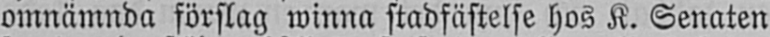omnämnda förslag winna stadfästelse hos K. Senaten
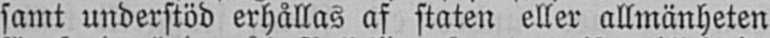samt understöd erhållas af staten eller allmänheten
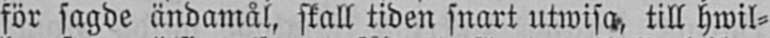för sagde ändamål, skall tiden snart utwisa till hwil-
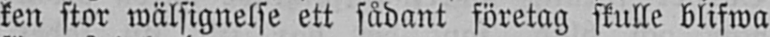ken stor wälsignelse ett sådant företag skulle blifwa
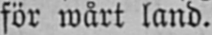för wårt land.
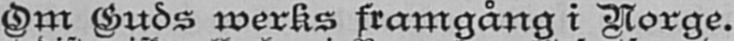Om Guds werks framgång i Norge.
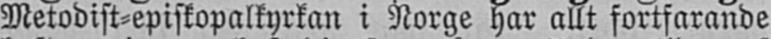Metodist-episkopalkyrkan i Norge har allt fortfarande
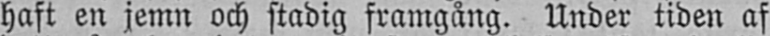haft en jemn och stadig framgång. Under tiden af
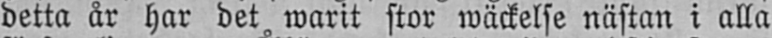detta år har det warit stor wäckelse nästan i alla
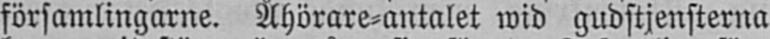församlingarne. Åhörare-antalet wid gudstjensterna
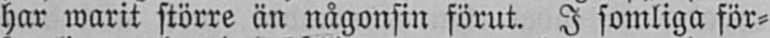har warit större än någonsin förut. I somliga för-
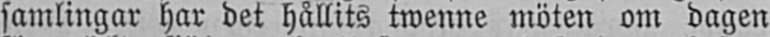samlingar har det hållits twenne möten om dagen
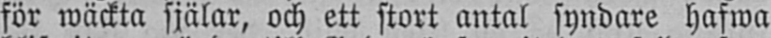för wäckta själar, och ett stort antal syndare hafwa
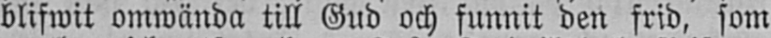blifwit omwända till Gud och funnit den frid, som
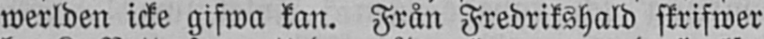werlden icke gifwa kan. Från Fredrikshald skrifwer
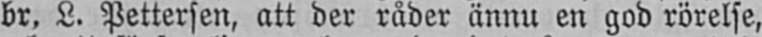br. L. Pettersen, att der råder ännu en god rörelse,
